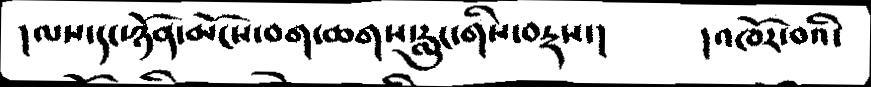། ལས་དང་ཉོན་མོངས་བག་ཆགས་རླུང་གིས་བརྡས་།          ། འཁོར་བའི་
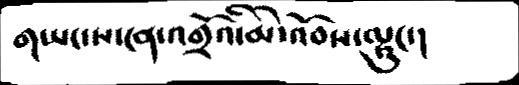གཡང་ས་ངན་འགྲོའི་མེ་འོབས་ལྷུང་།
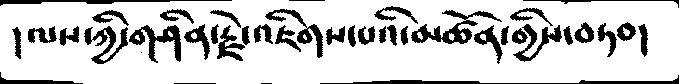།  ལས་ཀྱི་གཤིན་རྗེ་འཇིགས་པའི་མཚོན་གྱིས་བཏབ།
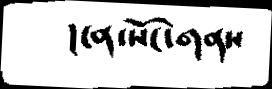། ངན་སོང་གནས
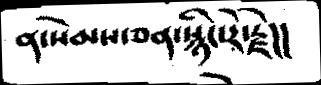ན་སེམས་ཅན་སྙིང་རེ་རྗེ།།
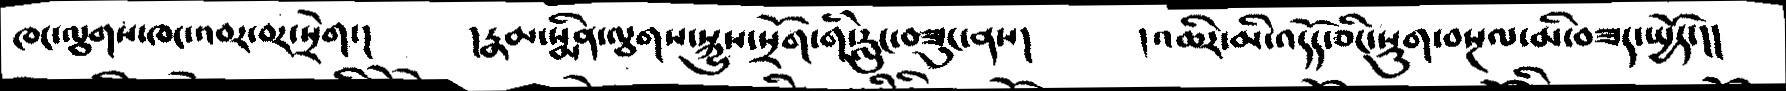ཁང་ལྕགས་ཁང་འབར་བར་སྲེག་།     །རྣམ་སྨིན་ལྕགས་སྐྱུས་སྲོག་གི་རླུང་བཟུང་ནས།     ། འཆིར་མི་འདོད་ཅིང་སྡུག་བསྔལ་མི་བཟད་སྤྱོད་།།
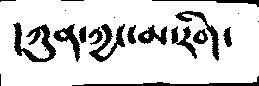། ཀུན་ཀྱང་མ་རིག་
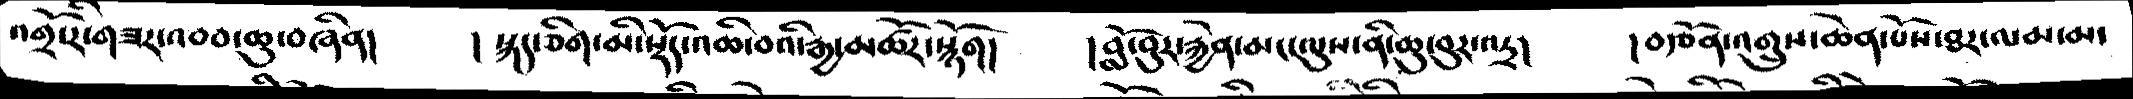འགྲོ་རི་གཟར་འབབ་ཆུ་བཞིན།   །སྐད་ཅིག་མི་སྡོད་འཆི་བའི་རྒྱ་མཚོར་སྙོག།   །བློ་བུར་རྐྱེན་མང་ལུས་ནི་ཆུ་བུར་འདྲ།   །བརྩོན་འགྲུས་ཆེན་པོས་ཐར་ལམ་མ་
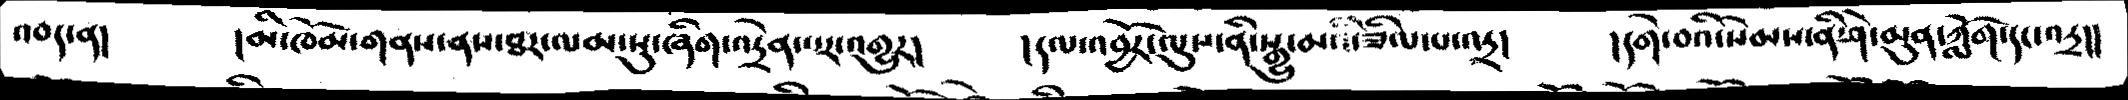འབད་ན།    །མི་ཁོམ་གནས་ནས་ཐར་ལམ་སུ་ཞིག་འདྲེན་པར་འགྱུར།   །དལ་འབྱོར་ལུས་ནི་སྒྱུ་མའི་ཟིལ་པ་འདྲ།   །དགེ་བའི་སེམས་ནི་ཤེ་མུན་ཀློག་དང་འདྲ།།
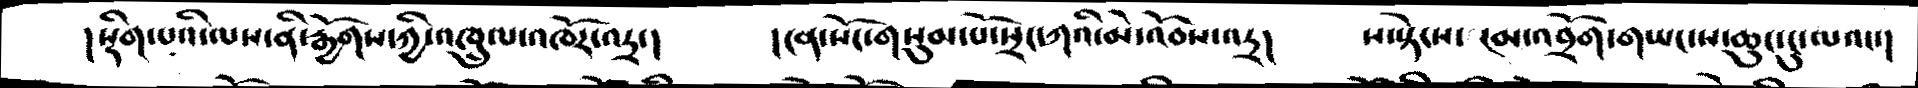།སྡིག་པའི་ལས་ནི་རྒྱོགས་ཀྱི་འཁྲུལ་འཁོར་འདྲ་།   །ངན་སོང་གསུམ་པོ་སྲེང་ཀའི་མེ་འོབས་འདྲ།   ས་སྟེངས་ ངམ་འབྲོག་གཡང་ས་ཆུང་ངུ་ལའང་།
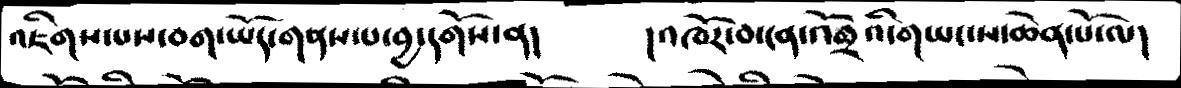འཇིགས་པས་བག་ཡོད་གནས་པ་བྱ་དགོས་ན།   །འཁོར་བ་ངན་འགྲོའི་གཡང་ས་ཆེན་པོ་ལ།
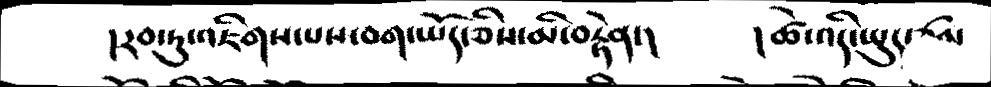།རབ་ཏུ་འཇིགས་པས་བག་ཡོད་ཅིས་མི་བརྟེན་།  །ཚེ་འདི་ཡུད་ཙམ་
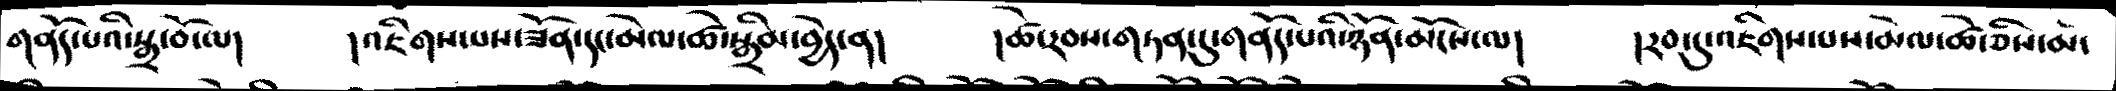གནོད་པའི་སྒྲ་བོ་ལ།   །འཇིགས་པས་ཟོན་དང་མེལ་ཚེ་སྒྲིམ་བྱེད་ན།   །ཚེ་རབས་གཏན་དུ་གནོད་པའི་ཉོན་མོངས་ལ།   །རབ་དུ་འཇིགས་པས་མེལ་ཚེ་ཅིས་མོ་
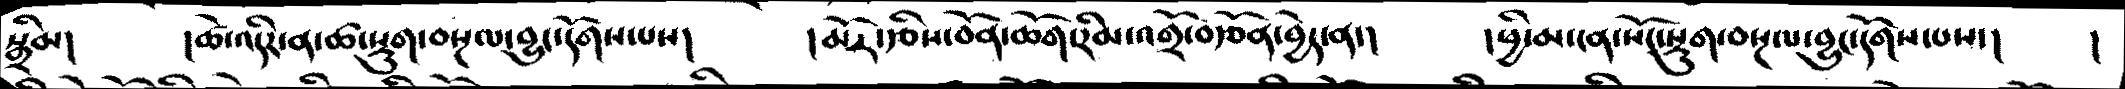སྒྲིམ།   །ཚེ་འདིར་ན་ཚ་སྡུག་བསྔལ་བྱུང་དོགས་པས།   །མོར་རྩིས་བོན་ཆོག་རིམ་འགྲོ་བརྩོན་བྱེད་ན་།   །ཕྱི་མ་ངན་སོང་སྡུག་བསྔལ་བྱུང་དགོས་པས་།   །
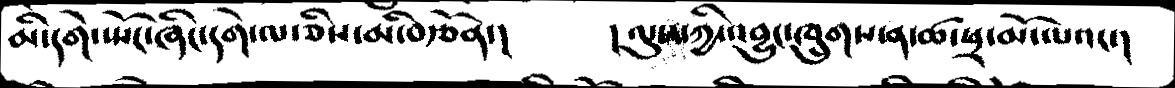མི་དགེ་སྤོང་ཞིང་དགེ་ལ་ཅིས་མི་བརྩོན་།      ། ལུས་ཀྱི་འབྱུང་ཁྲུགས་ན་ཚ་ཕྲ་མོ་ལའང་།
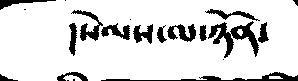། སེམས་ལ་ཉོན།
